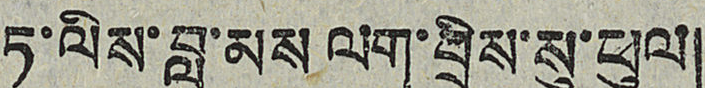ཏ་ལིས་བླ་མས ལག་བྲིས་སུ་ཕུལ།
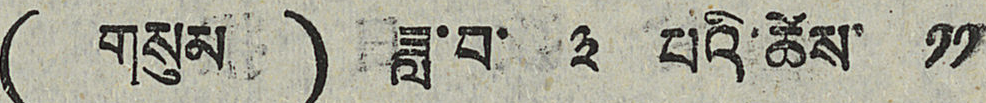( གསུམ ) ཟླ་བ་ ༣ པའི་ཚེས་ ༡༡
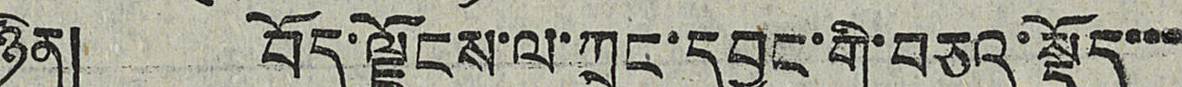ཉིན། བོད་ལྗོངས་ལ་ཀྲུང་དབྱང་གི་བཅའ་སྡོད་་་
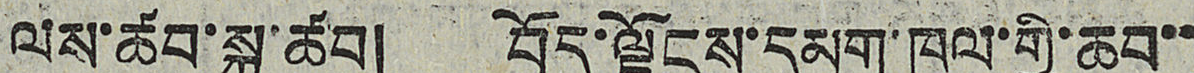ལས་ཚབ་སྐུ་ཚབ། བོད་ལྗོངས་དམག་ཁུལ་གྱི་ཆབ་་
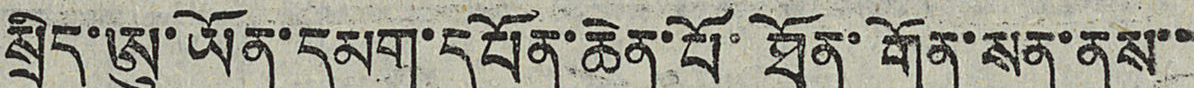སྲིད་ཨུ་ཡོན་དམག་དཔོན་ཆེན་པོ་ཐོན་གོན་སན་ནས་་
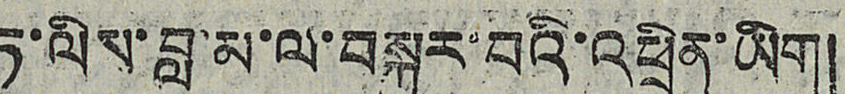ཏ་ལིས་བླ་མ་ལ་བསྐུར་བའི་འཕྲིན་ཡིག།
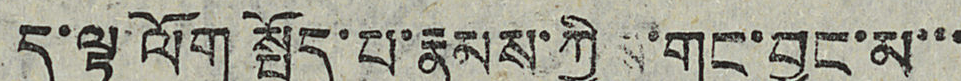ད་ལྟ་ལོག སྤྱོད་པ་རྣམས་ཀྱིས་གང་བྱུང་མ་་་
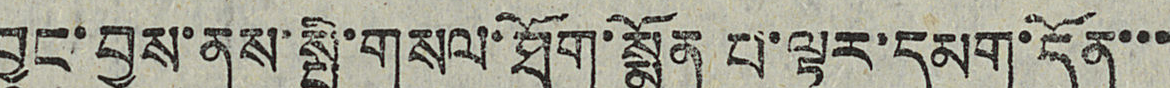བྱུང་བྱས་ནས་སྤྱི་གསལ་ཐོག་སྨྱོན པ་ལྟར་དམག་དོན་་་་
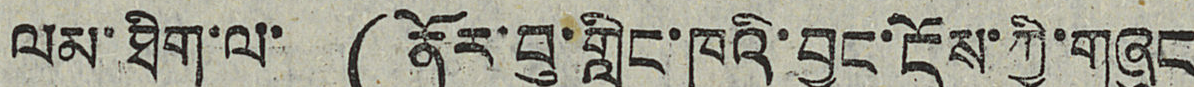ལམ་ཐིག་ལ་ (ནོར་བུ་གླིང་ཁའི་བྱང་ངོས་ཀྱི་གཞུང
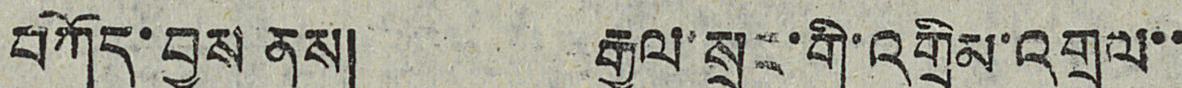བཀོད་བྱས ནས། རྒྱལ་སྲུང་གི་འགྲིམ་འགྲུལ་་
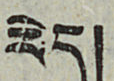རེད།
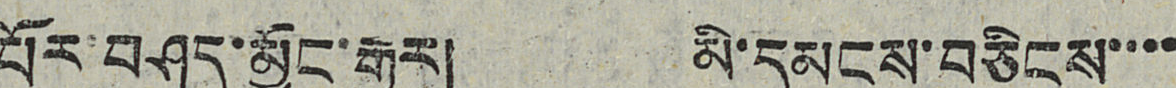པོར་བཤད་མྱོང་རྒྱུར། མི་དམངས་བཅིངས་་་་
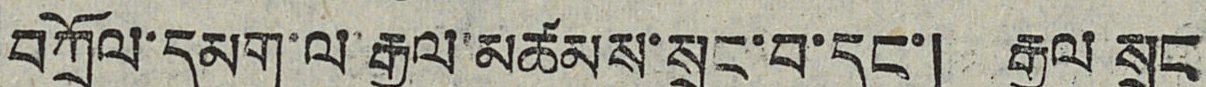བཀྲོལ་དམག་ལ་རྒྱལ་མཚམས་སྲུང་བ་དང་། རྒྱལ སྲུང
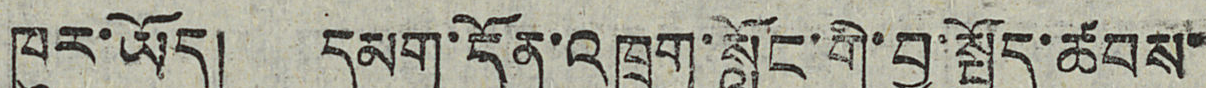ཁུར་ཡོད། དམག་དོན་འཁྲུག་སློང་གི་བྱ་སྤྱོད་ཚབས་
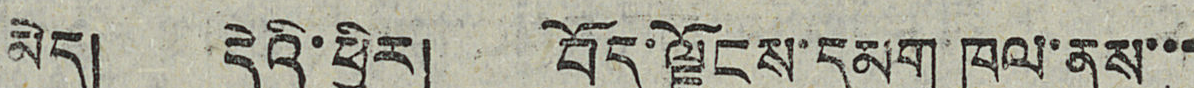མེད། དེའི་ཕྱིར། བོད་ལྗོངས་དམག ཁུལ་ནས་་་
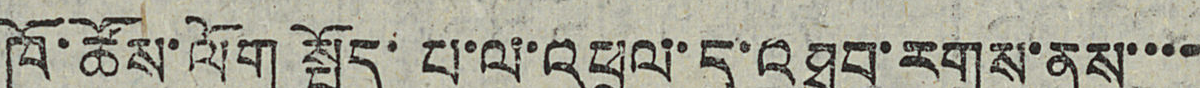ཁོ་ཚོས་ལོག སྤྱོད་པ་ལ་འཕྲལ་དུ་འཐབ་རགས་ནས་་་་
